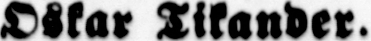Oskar Tikander.
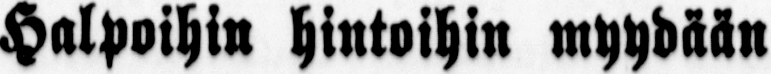Halpoihin hintoihin myyd ää n
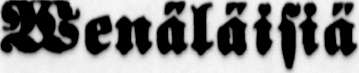Wenäläisiä
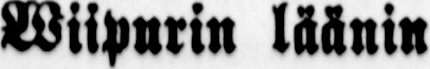Wiipurin läänin
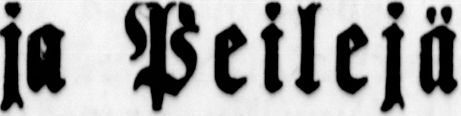ja Peilejä
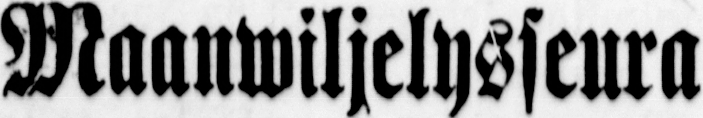Maanwiljelysseura
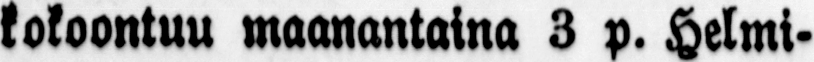kokoontuu maanantaina 3 p. Helmi-
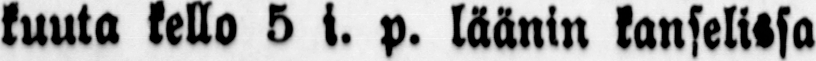kuuta kello 5 i. p. läänin kanselissa
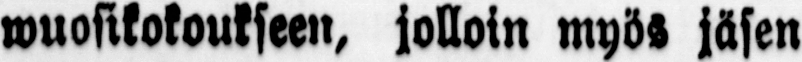wuosikokoukseen, jolloin myös jäsen
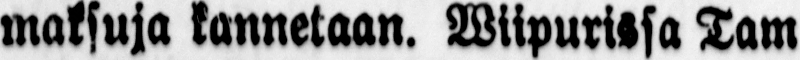maksuja kannetaan. Wiipurissa Tam-
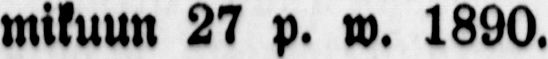mikuun 27 p. w. 1890.
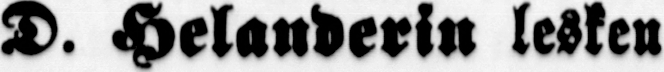D. Helanderin lesken
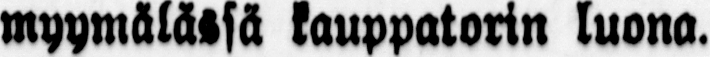myymälässä kauppatorin luona.
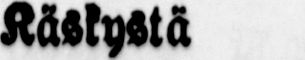Käskystä
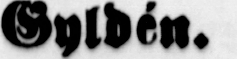A. Gyldén.
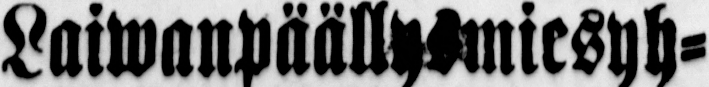Laiwanpäällysmiesyh-
